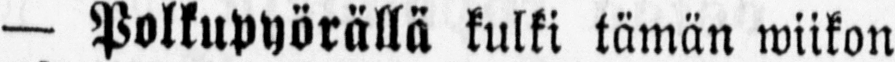— Polkupyörällä kulki tämän wiikon
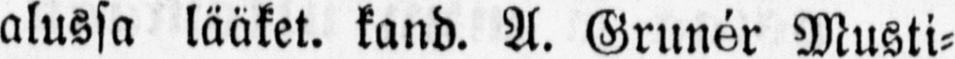alussa lääket. kand. A. Grunér Musti-
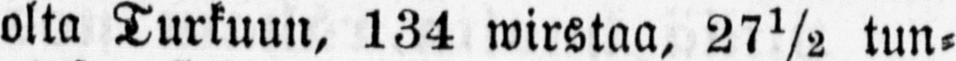olta Turkuun, 134 wirstaa, 27½ tun-
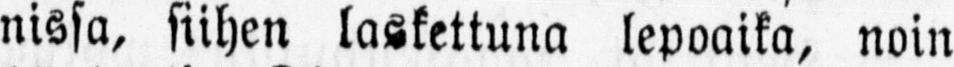nissa, siihen laskettuna lepoaika, noin
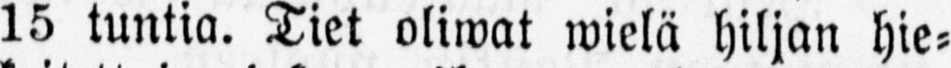15 tuntia. Tiet oliwat wielä hiljan hie-
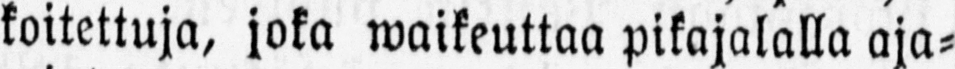koitettuja, joka waikeuttaa pikajalalla aja-
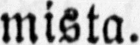mista.
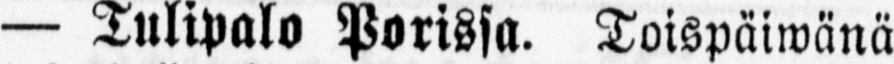— Tulipalo Porissa. Toispäiwänä
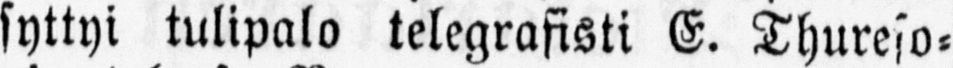syttyi tulipalo telegrafisti E. Thureso-
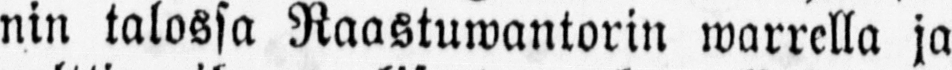nin talossa Raastuwantorin warrella ja
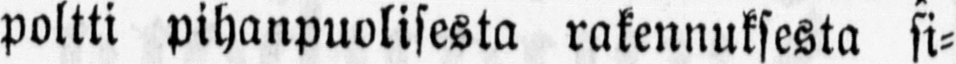poltti pihanpuolisesta rakennuksesta si-
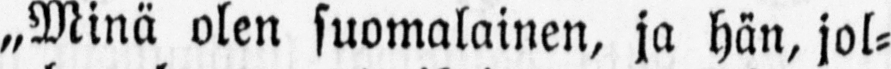„Minä olen suomalainen, ja hän, jol-
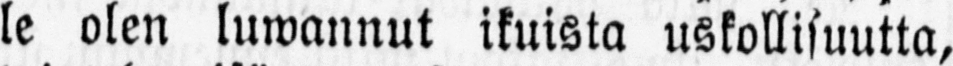le olen luwannut ikuista uskollisuutta,
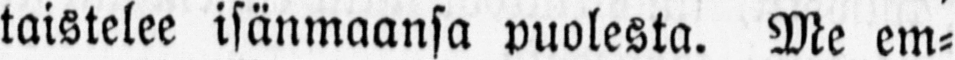taistelee isänmaansa puolesta. Me em-
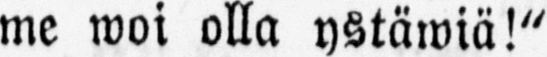me woi olla ystäwiä!"
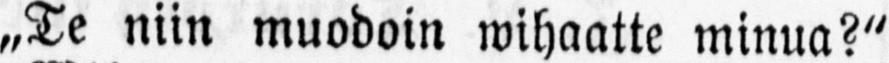„Te niin muodoin wihaatte minua?"
